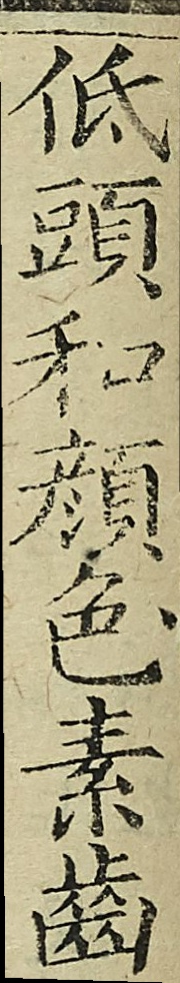低頭和顏色素齒
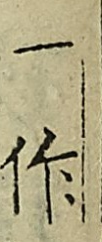一作
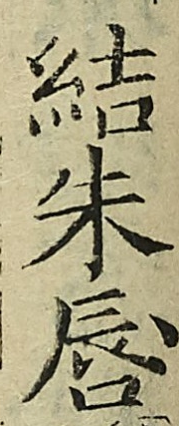結朱唇
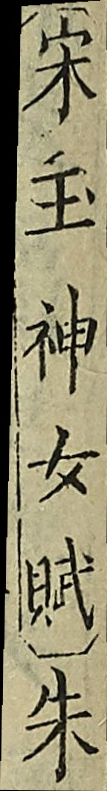（宋玉神女賦）朱
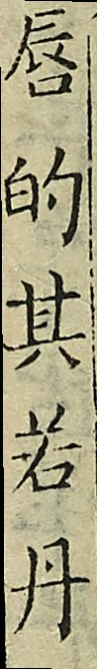唇的其若丹
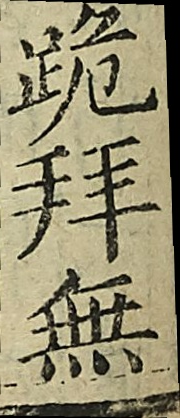跪拜無
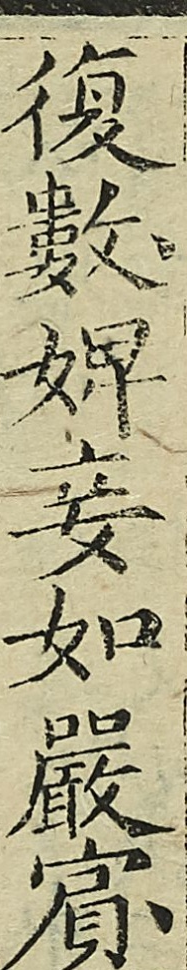復數婢妾如嚴賔
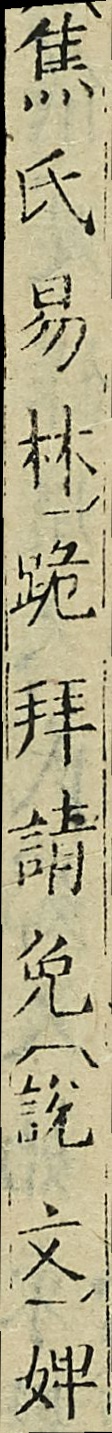焦氏易林跪拜請免説文婢
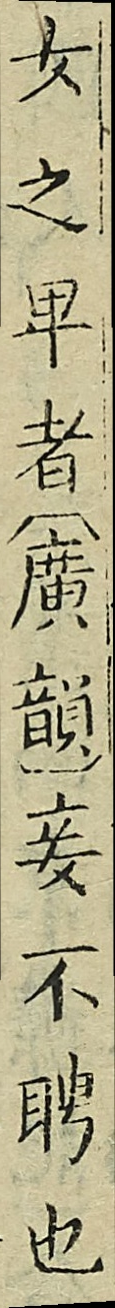女之早者（廣韻）妾不聘也
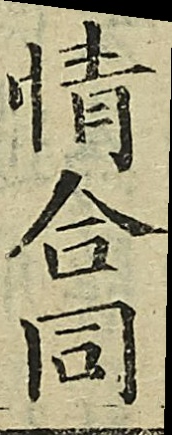情合同
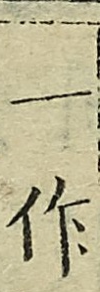一作
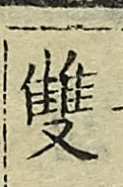雙
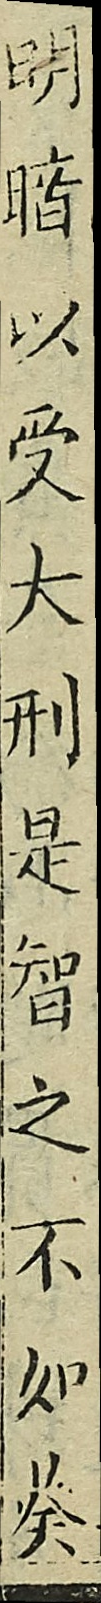明暗以受大刑是智之不如癸
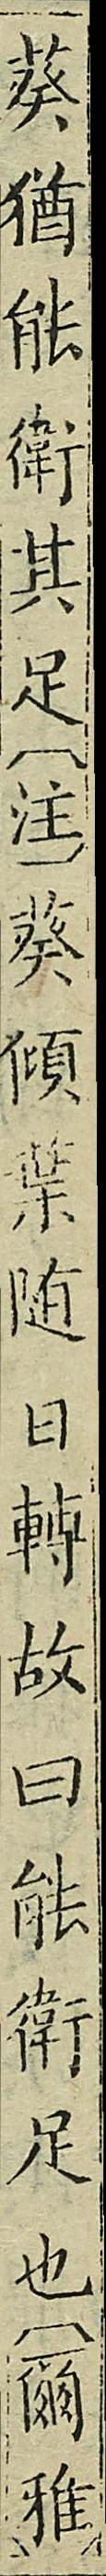葵猶能衛其足（注）葵傾葉隨日轉故曰能衛足也（爾雅）
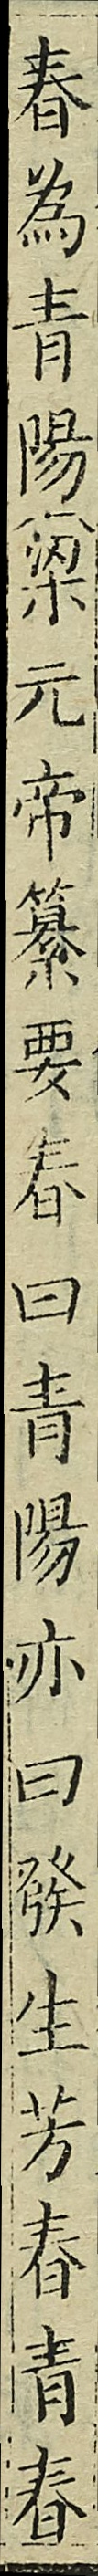春為青陽梁元帝纂要春曰青陽亦曰發生芳春青春
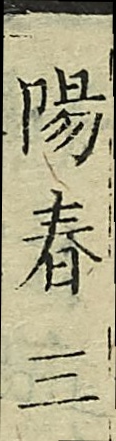陽春三
